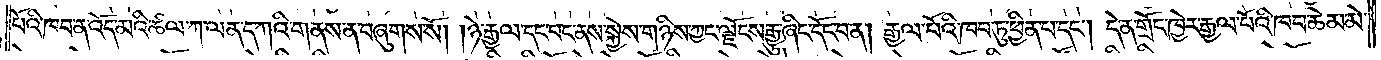པོའི་ཁབ་ན་འོད་མའི་ཚལ་ཀ་ལན་དཀའི་གནས་ན་བཞུགས་སོ། །ཉེ་རྒྱལ་དང་པང་ནས་སྐྱེས་གཉིས་ཀྱང་ལྗོངས་རྒྱུ་ཞིང་དོང་བ་ན། རྒྱལ་པོའི་ཁབ་ཏུ་ཕྱིན་པ་དང༌། དེ་ན་གྲོང་ཁྱེར་རྒྱལ་པོའི་ཁབ་ཆེམ་མེ་
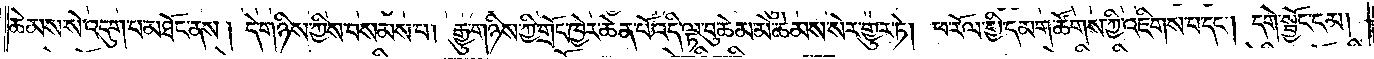ཆེམས་སེ་འདུག་པ་མཐོང་ནས། དེ་གཉིས་ཀྱིས་བསམས་པ། རྒྱུ་གཉིས་ཀྱི་གྲོང་ཁྱེར་ཆེན་པོ་འདི་ལྟ་བུ་ཆེམ་མེ་ཆེམས་སེར་གྱུར་ཏེ། ཕ་རོལ་གྱི་དམག་ཚོགས་ཀྱི་འཇིགས་པ་དང༌། དགེ་སྦྱོང་ངམ།
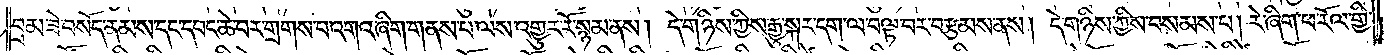བྲམ་ཟེ་བསོད་ནམས་དང་དབང་ཆེ་བར་གྲགས་པ་འགའ་ཞིག་གནས་པ་ལས་འགྱུར་རོ་སྙམ་ནས། དེ་གཉིས་ཀྱིས་རྒྱུ་སྐར་དག་ལ་བལྟ་བར་བརྩམས་ནས། དེ་གཉིས་ཀྱིས་བསམས་པ། རེ་ཞིག་ཕ་རོལ་གྱི་
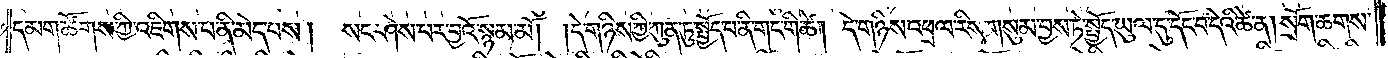དམག་ཚོགས་ཀྱི་འཇིགས་པ་ནི་མེད་པས། སང་ཤེས་པར་བྱའོ་སྙམ་མོ། །དེ་གཉིས་ཀྱི་ཀུན་ཏུ་སྤྱོད་པ་ནི་གང་གི་ཚེ། དེ་གཉིས་འཕྲལ་རིས་གསུམ་བྱས་ཏེ་སྤྱོད་ཡུལ་དུ་དོང་བ་དེའི་ཚེ་ན། སྲོག་ཆགས་
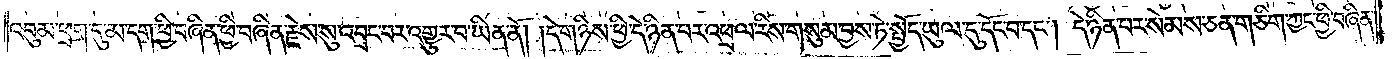འབུམ་ཕྲག་དུ་མ་དག་ཕྱི་བཞིན་ཕྱི་བཞིན་རྗེས་སུ་འབྲང་བར་འགྱུར་བ་ཡིན་ནོ། །དེ་གཉིས་ཕྱི་དེ་ཉིན་པར་འཕྲལ་རིས་གསུམ་བྱས་ཏེ་སྤྱོད་ཡུལ་དུ་དོང་བ་དང༌། དེ་ཉིན་པར་སེམས་ཅན་གཅིག་ཀྱང་ཕྱི་བཞིན་
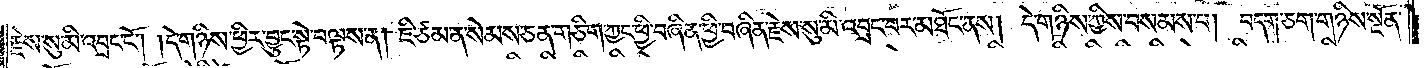རྗེས་སུ་མི་འབྲང་ངོ༌། །དེ་གཉིས་ཕྱིར་བྱུང་སྟེ་བལྟས་ན། ཇི་ཙམ་ན་སེམས་ཅན་གཅིག་ཀྱང་ཕྱི་བཞིན་ཕྱི་བཞིན་རྗེས་སུ་མི་འབྲང་བར་མཐོང་ནས། དེ་གཉིས་ཀྱིས་བསམས་པ། བདག་ཅག་གཉིས་སྔོན་
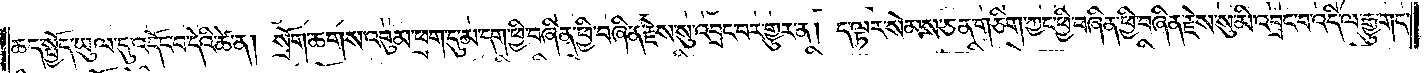ཆད་སྤྱོད་ཡུལ་དུ་འདོང་བ་དེའི་ཚེ་ན། སྲོག་ཆགས་འབུམ་ཕྲག་དུ་མ་དག་ཕྱི་བཞིན་ཕྱི་བཞིན་རྗེས་སུ་འབྲང་བར་གྱུར་ན། ད་ལྟར་སེམས་ཅན་གཅིག་ཀྱང་ཕྱི་བཞིན་རྗེས་སུ་མི་འབྲང་བ་འདི་ལ་རྒྱུ་གང་
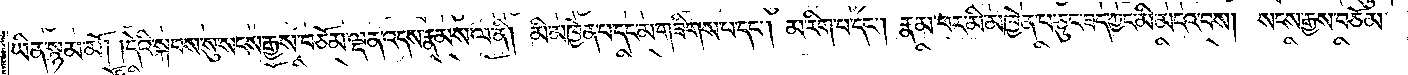ཡིན་སྙམ་མོ། །དེའི་སྐབས་སུ་སངས་རྒྱས་བཅོམ་ལྡན་འདས་རྣམས་ལ་ནི། མི་མཁྱེན་པ་དང་མ་གཟིགས་པ་དང༌། མ་རིག་པ་དང༌། རྣམ་པར་མི་མཁྱེན་པ་ཅུང་ཟད་ཀྱང་མི་མངའ་བས། སངས་རྒྱས་བཅོམ་
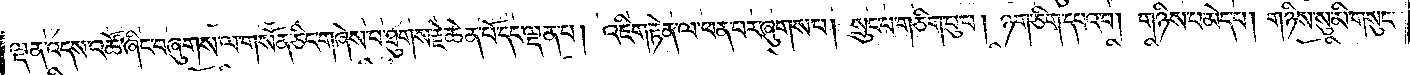ལྡན་འདས་འཚོ་ཞིང་བཞུགས་ལ་གསོན་ཅིང་གཞེས་པ་ཐུགས་རྗེ་ཆེན་པོ་དང་ལྡན་པ། འཇིག་རྟེན་ལ་ཕན་པར་ཞུགས་པ། སྲུང་པ་གཅིག་པུ་བ། ཉག་ཅིག་དཔའ་བ། གཉིས་པ་མེད་པ། གཉིས་སུ་མི་གསུང་
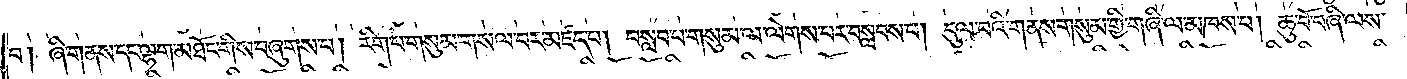བ། ཞི་གནས་དང་ལྷག་མཐོང་གིས་བཞུགས་པ། རིག་པ་གསུམ་གསལ་བར་མཛད་པ། བསླབ་པ་གསུམ་ལ་ལེགས་པར་བསླབས་པ། དུལ་བའི་གནས་གསུམ་གྱི་གཞི་ལ་མཁས་པ། ཆུ་བོ་བཞི་ལས་
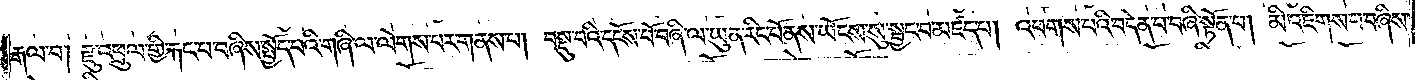རྒལ་བ། རྫུ་འཕྲུལ་གྱི་རྐང་པ་བཞིས་སྤྱོད་པའི་གཞི་ལ་ལེགས་པར་གནས་པ། བསྡུ་བའི་དངོས་པོ་བཞི་ལ་ཡུན་རིང་པོ་ནས་ཡོངས་སུ་སྦྱང་བ་མཛད་པ། འཕགས་པའི་བདེན་པ་བཞི་སྟོན་པ། མི་འཇིགས་པ་བཞིས་
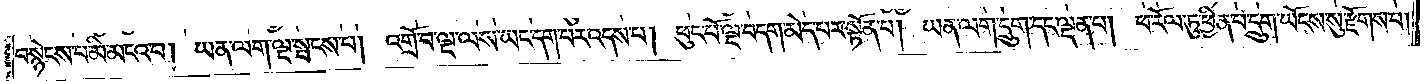བསྙེངས་པ་མི་མངའ་བ། ཡན་ལག་ལྔ་སྤངས་པ། འགྲོ་བ་ལྔ་ལས་ཡང་དག་པར་འདས་པ། ཕུང་པོ་ལྔ་བདག་མེད་པར་སྟོན་པ། ཡན་ལག་དྲུག་དང་ལྡན་པ། ཕ་རོལ་ཏུ་ཕྱིན་པ་དྲུག་ཡོངས་སུ་རྫོགས་པ།
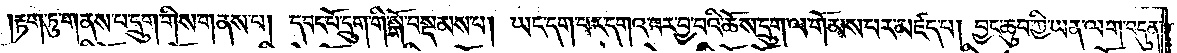རྟག་ཏུ་གནས་པ་དྲུག་གིས་གནས་པ། དབང་པོ་དྲུག་གི་སྒོ་བསྡམས་པ། ཡང་དག་པར་དགའ་བར་བྱ་བའི་ཆོས་དྲུག་ལ་གོམས་པར་མཛད་པ། བྱང་ཆུབ་ཀྱི་ཡན་ལག་བདུན་
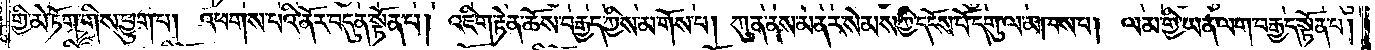གྱི་མེ་ཏོག་གིས་ཕྱུག་པ། འཕགས་པའི་ནོར་བདུན་སྟོན་པ། འཇིག་རྟེན་ཆོས་བརྒྱད་ཀྱིས་མ་གོས་པ། ཀུན་ནས་མནར་སེམས་ཀྱི་དངོས་པོ་དགུ་ལ་མཁས་པ། ལམ་གྱི་ཡན་ལག་བརྒྱད་སྟོན་པ།
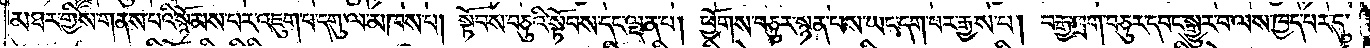མཐར་གྱིས་གནས་པའི་སྙོམས་པར་འཇུག་པ་དགུ་ལ་མཁས་པ། སྟོབས་བཅུའི་སྟོབས་དང་ལྡན་པ། ཕྱོགས་བཅུར་སྙན་པས་ཡང་དག་པར་རྒྱས་པ། བརྒྱ་ཕྲག་བཅུར་དབང་སྒྱུར་བ་ལས་ཁྱད་པར་དུ་
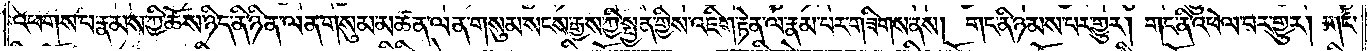འཕགས་པ་རྣམས་ཀྱི་ཆོས་ཉིད་ནི་ཉིན་ལན་གསུམ་མཚན་ལན་གསུམ་སངས་རྒྱས་ཀྱི་སྤྱན་གྱིས་འཇིག་རྟེན་ལ་རྣམ་པར་གཟིགས་ནས། གང་ནི་ཉམས་པར་གྱུར། གང་ནི་འཕེལ་བར་གྱུར། གང་
